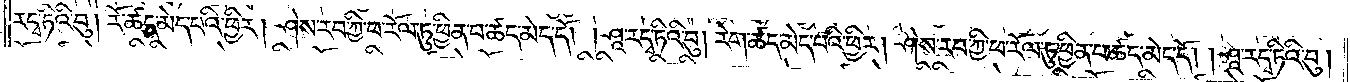རདྭ་ཏིའི་བུ། རོ་ཚད་མེད་པའི་ཕྱིར། ཤེས་རབ་ཀྱི་ཕ་རོལ་ཏུ་ཕྱིན་པ་ཚད་མེད་དོ། །ཤཱ་རདྭ་ཏིའི་བུ། རེག་ཚད་མེད་པའི་ཕྱིར། ཤེས་རབ་ཀྱི་ཕ་རོལ་ཏུ་ཕྱིན་པ་ཚད་མེད་དོ། །ཤཱ་རདྭ་ཏིའི་བུ།
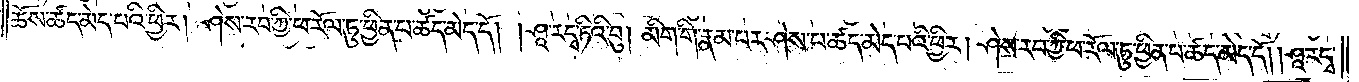ཆོས་ཚད་མེད་པའི་ཕྱིར། ཤེས་རབ་ཀྱི་ཕ་རོལ་ཏུ་ཕྱིན་པ་ཚད་མེད་དོ། །ཤཱ་རདྭ་ཏིའི་བུ། མིག་གི་རྣམ་པར་ཤེས་པ་ཚད་མེད་པའི་ཕྱིར། ཤེས་རབ་ཀྱི་ཕ་རོལ་ཏུ་ཕྱིན་པ་ཚད་མེད་དོ། །ཤཱ་རདྭ་
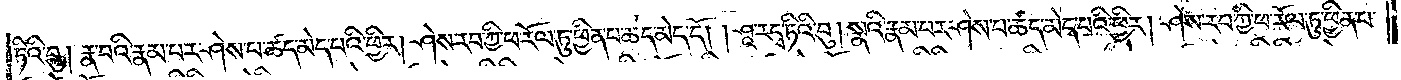ཏིའི་བུ། རྣ་བའི་རྣམ་པར་ཤེས་པ་ཚད་མེད་པའི་ཕྱིར། ཤེས་རབ་ཀྱི་ཕ་རོལ་ཏུ་ཕྱིན་པ་ཚད་མེད་དོ། །ཤཱ་རདྭ་ཏིའི་བུ། སྣའི་རྣམ་པར་ཤེས་པ་ཚད་མེད་པའི་ཕྱིར། ཤེས་རབ་ཀྱི་ཕ་རོལ་ཏུ་ཕྱིན་པ་
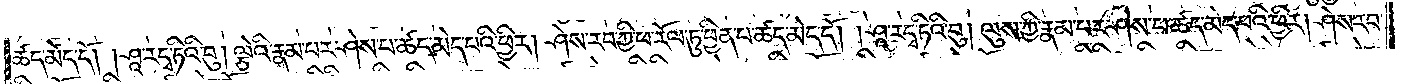ཚད་མེད་དོ། །ཤཱ་རདྭ་ཏིའི་བུ། ལྕེའི་རྣམ་པ་ཤེས་པ་ཚད་མེད་པའི་ཕྱིར། ཤེས་རབ་ཀྱི་ཕ་རོལ་ཏུ་ཕྱིན་པ་ཚད་མེད་དོ། །ཤཱ་རདྭ་ཏིའི་བུ། ལུས་ཀྱི་རྣམ་པར་ཤེས་པ་ཚད་མེད་པའི་ཕྱིར། ཤེས་རབ་
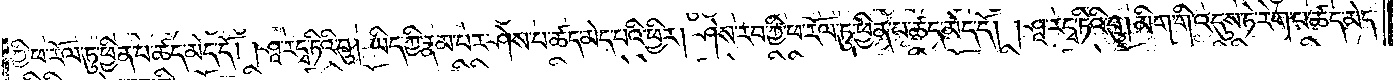ཀྱི་ཕ་རོལ་ཏུ་ཕྱིན་པ་ཚད་མེད་དོ། །ཤཱ་རདྭ་ཏིའི་བུ། ཡིད་ཀྱི་རྣམ་པར་ཤེས་པ་ཚད་མེད་པའི་ཕྱིར། ཤེས་རབ་ཀྱི་ཕ་རོལ་ཏུ་ཕྱིན་པ་ཚད་མེད་དོ། །ཤཱ་རདྭ་ཏིའི་བུ། མིག་གི་འདུས་ཏེ་རེག་པ་ཚད་མེད་
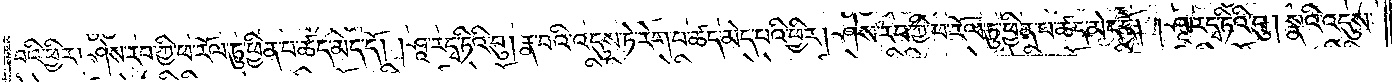པའི་ཕྱིར། ཤེས་རབ་ཀྱི་ཕ་རོལ་ཏུ་ཕྱིན་པ་ཚད་མེད་དོ། །ཤཱ་རདྭ་ཏིའི་བུ། རྣ་བའི་འདུས་ཏེ་རེག་པ་ཚད་མེད་པའི་ཕྱིར། ཤེས་རབ་ཀྱི་ཕ་རོལ་ཏུ་ཕྱིན་པ་ཚད་མེད་དོ། །ཤཱ་རདྭ་ཏིའི་བུ། སྣའི་འདུས་
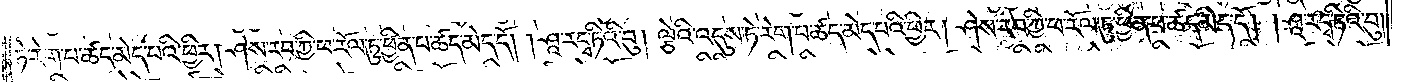ཏེ་རེག་པ་ཚད་མེད་པའི་ཕྱིར། ཤེས་རབ་ཀྱི་ཕ་རོལ་ཏུ་ཕྱིན་པ་ཚད་མེད་དོ། །ཤཱ་རདྭ་ཏིའི་བུ། ལྕེའི་འདུས་ཏེ་རེག་པ་ཚད་མེད་པའི་ཕྱིར། ཤེས་རབ་ཀྱི་ཕ་རོལ་ཏུ་ཕྱིན་པ་ཚད་མེད་དོ། །ཤཱ་རདྭ་ཏིའི་བུ།
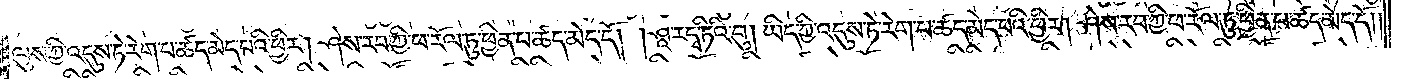ལུས་ཀྱི་འདུས་ཏེ་རེག་པ་ཚད་མེད་པའི་ཕྱིར། ཤེས་རབ་ཀྱི་ཕ་རོལ་ཏུ་ཕྱིན་པ་ཚད་མེད་དོ། །ཤཱ་རདྭ་ཏིའི་བུ། ཡིད་ཀྱི་འདུས་ཏེ་རེག་པ་ཚད་མེད་པའི་ཕྱིར། ཤེས་རབ་ཀྱི་ཕ་རོལ་ཏུ་ཕྱིན་པ་ཚད་མེད་དོ། །
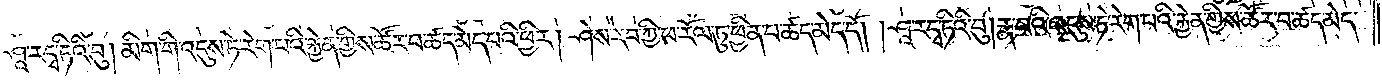ཤཱ་རདྭ་ཏིའི་བུ། མིག་གི་འདུས་ཏེ་རེག་པའི་རྐྱེན་གྱིས་ཚོར་བ་ཚད་མེད་པའི་ཕྱིར། ཤེས་རབ་ཀྱི་ཕ་རོལ་ཏུ་ཕྱིན་པ་ཚད་མེད་དོ། །ཤཱ་རདྭ་ཏིའི་བུ། རྣ་བའི་འདུས་ཏེ་རེག་པའི་རྐྱེན་གྱིས་ཚོར་བ་ཚད་མེད་
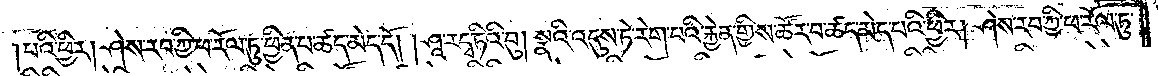པའི་ཕྱིར། ཤེས་རབ་ཀྱི་ཕ་རོལ་ཏུ་ཕྱིན་པ་ཚད་མེད་དོ། །ཤཱ་རདྭ་ཏིའི་བུ། སྣའི་འདུས་ཏེ་རེག་པའི་རྐྱེན་གྱིས་ཚོར་བ་ཚད་མེད་པའི་ཕྱིར། ཤེས་རབ་ཀྱི་ཕ་རོལ་ཏུ་
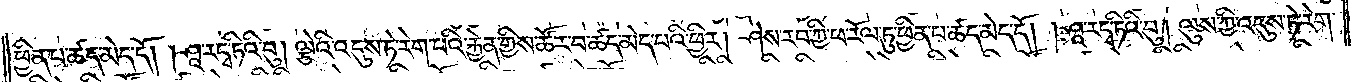ཕྱིན་པ་ཚད་མེད་དོ། །ཤཱ་རདྭ་ཏིའི་བུ། ལྕེའི་འདུས་ཏེ་རེག་པའི་རྐྱེན་གྱིས་ཚོར་བ་ཚད་མེད་པའི་ཕྱིར། ཤེས་རབ་ཀྱི་ཕ་རོལ་ཏུ་ཕྱིན་པ་ཚད་མེད་དོ། །ཤཱ་རདྭ་ཏིའི་བུ། ལུས་ཀྱི་འདུས་ཏེ་རེག་
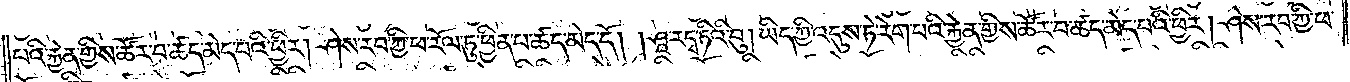པའི་རྐྱེན་གྱིས་ཚོར་བ་ཚད་མེད་པའི་ཕྱིར། ཤེས་རབ་ཀྱི་ཕ་རོལ་ཏུ་ཕྱིན་པ་ཚད་མེད་དོ། །ཤཱ་རདྭ་ཏིའི་བུ། ཡིད་ཀྱི་འདུས་ཏེ་རེག་པའི་རྐྱེན་གྱིས་ཚོར་བ་ཚད་མེད་པའི་ཕྱིར། ཤེས་རབ་ཀྱི་ཕ་
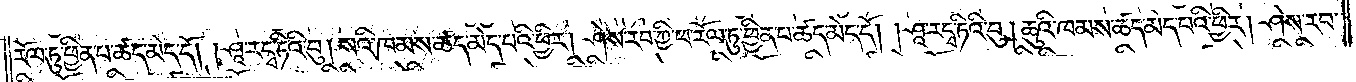རོལ་ཏུ་ཕྱིན་པ་ཚད་མེད་དོ། །ཤཱ་རདྭ་ཏིའི་བུ། སའི་ཁམས་ཚད་མེད་པའི་ཕྱིར། ཤེས་རབ་ཀྱི་ཕ་རོལ་ཏུ་ཕྱིན་པ་ཚད་མེད་དོ། །ཤཱ་རདྭ་ཏིའི་བུ། ཆུའི་ཁམས་ཚད་མེད་པའི་ཕྱིར། ཤེས་རབ་
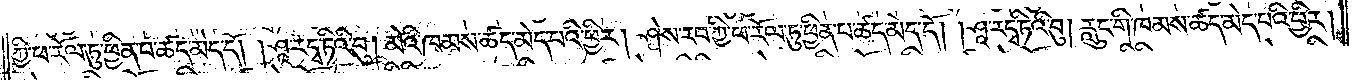ཀྱི་ཕ་རོལ་ཏུ་ཕྱིན་པ་ཚད་མེད་དོ། །ཤཱ་རདྭ་ཏིའི་བུ། མེའི་ཁམས་ཚད་མེད་པའི་ཕྱིར། ཤེས་རབ་ཀྱི་ཕ་རོལ་ཏུ་ཕྱིན་པ་ཚད་མེད་དོ། །ཤཱ་རདྭ་ཏིའི་བུ། རླུང་གི་ཁམས་ཚད་མེད་པའི་ཕྱིར།
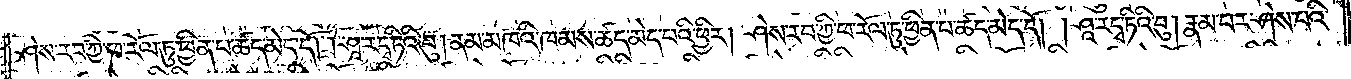ཤེས་རབ་ཀྱི་ཕ་རོལ་ཏུ་ཕྱིན་པ་ཚད་མེད་དོ། །ཤཱ་རདྭ་ཏིའི་བུ། ནམ་མཁའི་ཁམས་ཚད་མེད་པའི་ཕྱིར། ཤེས་རབ་ཀྱི་ཕ་རོལ་ཏུ་ཕྱིན་པ་ཚད་མེད་དོ། །ཤཱ་རདྭ་ཏིའི་བུ། རྣམ་པར་ཤེས་པའི་
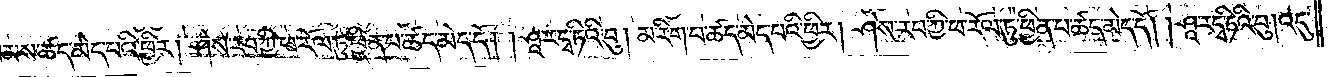ཁམས་ཚད་མེད་པའི་ཕྱིར། ཤེས་རབ་ཀྱི་ཕ་རོལ་ཏུ་ཕྱིན་པ་ཚད་མེད་དོ། །ཤཱ་རདྭ་ཏིའི་བུ། མ་རིག་པ་ཚད་མེད་པའི་ཕྱིར། ཤེས་རབ་ཀྱི་ཕ་རོལ་ཏུ་ཕྱིན་པ་ཚད་མེད་དོ། །ཤཱ་རདྭ་ཏིའི་བུ། འདུ་
